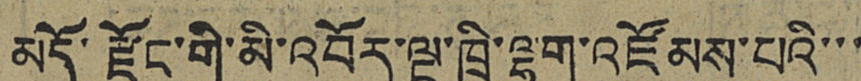མདོ་རྫོང་གི་མི་འབོར་ལྔ་ཁྲི་ལྷག་འཛོམས་པའི་་་
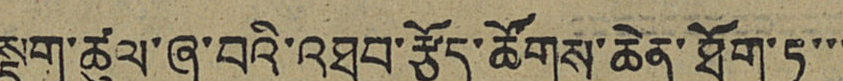སྡུག་ཚུལ་ཞུ་བའི་འཐབ་རྩོད་ཚོགས་ཆེན་ཐོག་ཏུ་་་
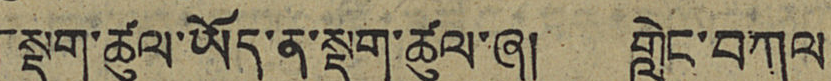「སྡུག་ཚུལ་ཡོད་ན་སྡུག་ཚུལ་ཞུ། གླེང་བཀལ་
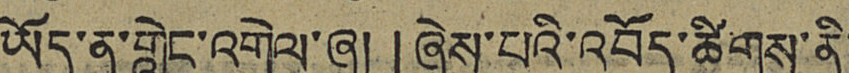ཡོད་ན་གླེང་འགེལ་ཞུ།」ཞེས་པའི་འབོད་ཚིགས་ནི་
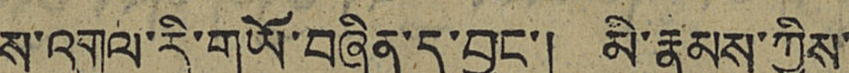ས་འགུལ་རི་གཡོ་བཞིན་དུ་བྱུང་། མི་རྣམས་ཀྱིས་
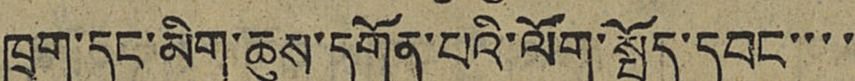ཁྲག་དང་མིག་ཆུས་དགོན་པའི་ལོག་སྤྱོད་དབང་་་་
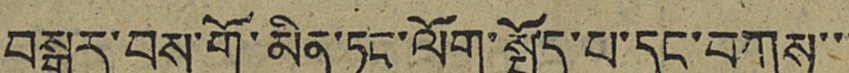བསྒྱུར་བས་གོ་མིན་ཏང་ལོག་སྤྱོད་པ་དང་བཀས་་་
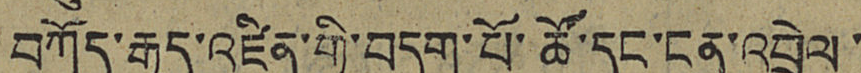བཀོད་རྒྱུད་འཛིན་གྱི་བདག་པོ་ཚོ་དང་ངན་འབྲེལ་
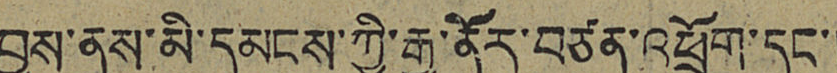བྱས་ནས་མི་དམངས་ཀྱི་རྒྱུ་ནོར་བཙན་འཕྲོག་དང་།
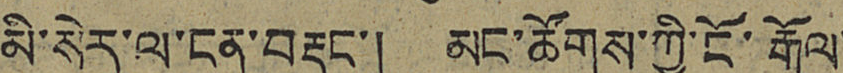མི་སེར་ལ་ངན་བརྡུང་། མང་ཚོགས་ཀྱི་ངོ་རྒོལ་
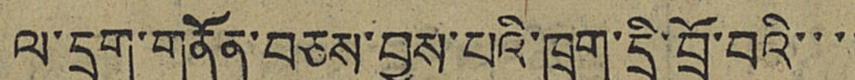ལ་དྲག་གནོན་བཅས་བྱས་པའི་ཁྲག་དྲི་བྲོ་བའི་་་་
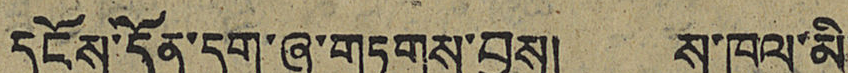དངོས་དོན་དག་ཞུ་གཏུགས་བྱས། ས་ཁུལ་མི་
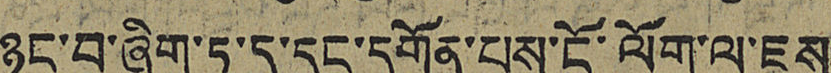ཉུང་བ་ཞིག་ཏུ་ད་དུང་དགོན་པས་ངོ་ལོག་ལ་ཇུས་
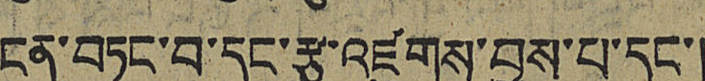ངན་བཏང་བ་དང་རྩ་འཛུགས་བྱས་པ་དང་།
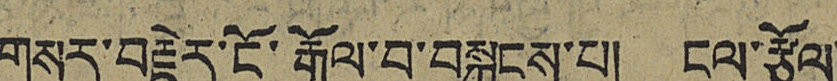གསར་བརྗེར་ངོ་རྒོལ་བ་བསྐུངས་པ། ངལ་རྩོལ་
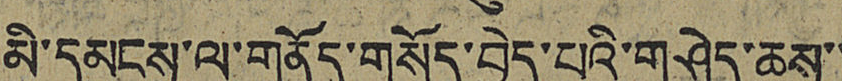མི་དམངས་ལ་གནོད་གསོད་བྱེད་པའི་གཤེད་ཆས་་
